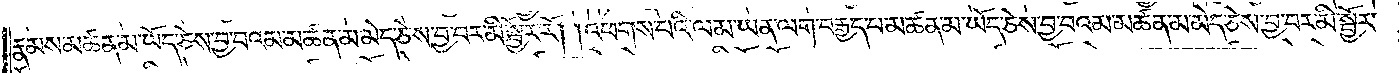རྣམས་མཚན་མ་ཡོད་ཅེས་བྱ་བའམ་མཚན་མ་མེད་ཅེས་བྱ་བར་མི་སྦྱོར་རོ། །འཕགས་པའི་ལམ་ཡན་ལག་བརྒྱད་པ་མཚན་མ་ཡོད་ཅེས་བྱ་བའམ་མཚན་མ་མེད་ཅེས་བྱ་བར་མི་སྦྱོར་
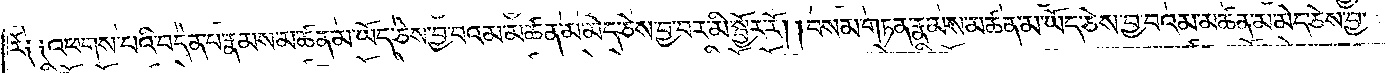རོ༑ ༑འཕགས་པའི་བདེན་པ་རྣམས་མཚན་མ་ཡོད་ཅེས་བྱ་བའམ་མཚན་མ་མེད་ཅེས་བྱ་བར་མི་སྦྱོར་རོ། །བསམ་གཏན་རྣམས་མཚན་མ་ཡོད་ཅེས་བྱ་བའམ་མཚན་མ་མེད་ཅེས་བྱ་
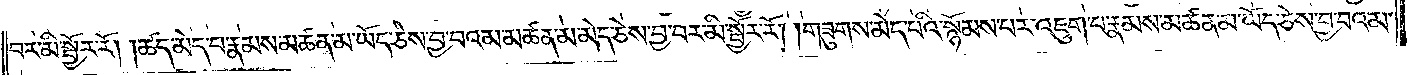བར་མི་སྦྱོར་རོ། །ཚད་མེད་པ་རྣམས་མཚན་མ་ཡོད་ཅེས་བྱ་བའམ་མཚན་མ་མེད་ཅེས་བྱ་བར་མི་སྦྱོར་རོ། །གཟུགས་མེད་པའི་སྙོམས་པར་འཇུག་པ་རྣམས་མཚན་མ་ཡོད་ཅེས་བྱ་བའམ་
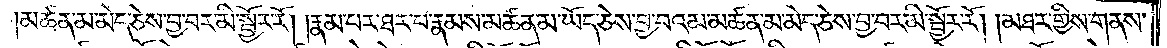མཚན་མ་མེད་ཅེས་བྱ་བར་མི་སྦྱོར་རོ། །རྣམ་པར་ཐར་པ་རྣམས་མཚན་མ་ཡོད་ཅེས་བྱ་བའམ་མཚན་མ་མེད་ཅེས་བྱ་བར་མི་སྦྱོར་རོ། །མཐར་གྱིས་གནས་
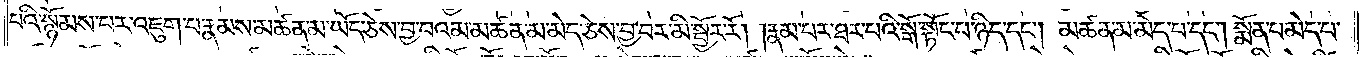པའི་སྙོམས་པར་འཇུག་པ་རྣམས་མཚན་མ་ཡོད་ཅེས་བྱ་བའམ་མཚན་མ་མེད་ཅེས་བྱ་བར་མི་སྦྱོར་རོ། །རྣམ་པར་ཐར་པའི་སྒོ་སྟོང་པ་ཉིད་དང༌། མཚན་མ་མེད་པ་དང༌། སྨོན་པ་མེད་པ་
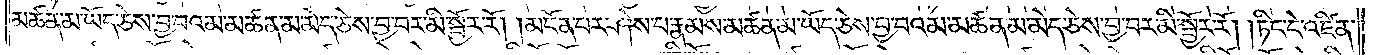མཚན་མ་ཡོད་ཅེས་བྱ་བའམ་མཚན་མ་མེད་ཅེས་བྱ་བར་མི་སྦྱོར་རོ། །མངོན་པར་ཤེས་པ་རྣམས་མཚན་མ་ཡོད་ཅེས་བྱ་བའམ་མཚན་མ་མེད་ཅེས་བྱ་བར་མི་སྦྱོར་རོ། །ཏིང་ངེ་འཛིན་
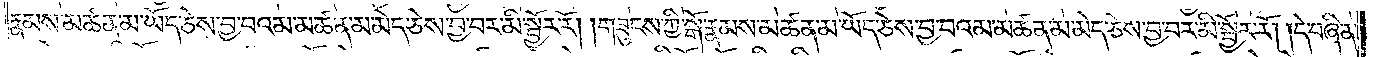རྣམས་མཚན་མ་ཡོད་ཅེས་བྱ་བའམ་མཚན་མ་མེད་ཅེས་བྱ་བར་མི་སྦྱོར་རོ། །གཟུངས་ཀྱི་སྒོ་རྣམས་མཚན་མ་ཡོད་ཅེས་བྱ་བའམ་མཚན་མ་མེད་ཅེས་བྱ་བར་མི་སྦྱོར་རོ། །དེ་བཞིན་
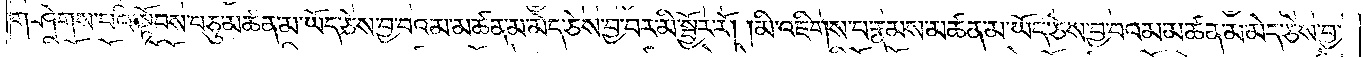གཤེགས་པའི་སྟོབས་བཅུ་མཚན་མ་ཡོད་ཅེས་བྱ་བའམ་མཚན་མ་མེད་ཅེས་བྱ་བར་མི་སྦྱོར་རོ། །མི་འཇིགས་པ་རྣམས་མཚན་མ་ཡོད་ཅེས་བྱ་བའམ་མཚན་མ་མེད་ཅེས་བྱ་
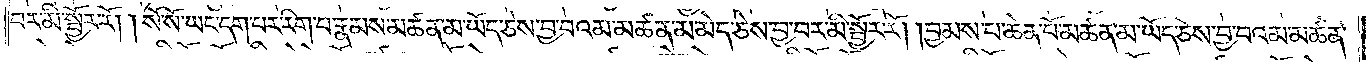བར་མི་སྦྱོར་རོ། །སོ་སོ་ཡང་དག་པར་རིག་པ་རྣམས་མཚན་མ་ཡོད་ཅེས་བྱ་བའམ་མཚན་མ་མེད་ཅེས་བྱ་བར་མི་སྦྱོར་རོ། །བྱམས་པ་ཆེན་པོ་མཚན་མ་ཡོད་ཅེས་བྱ་བའམ་མཚན་
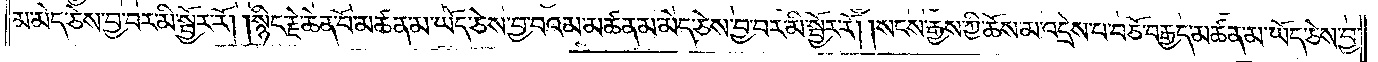མ་མེད་ཅེས་བྱ་བར་མི་སྦྱོར་རོ། །སྙིང་རྗེ་ཆེན་པོ་མཚན་མ་ཡོད་ཅེས་བྱ་བའམ་མཚན་མ་མེད་ཅེས་བྱ་བར་མི་སྦྱོར་རོ། །སངས་རྒྱས་ཀྱི་ཆོས་མ་འདྲེས་པ་བཅོ་བརྒྱད་མཚན་མ་ཡོད་ཅེས་བྱ་
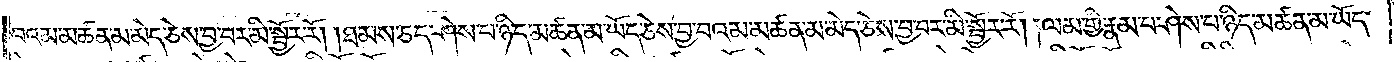བའམ་མཚན་མ་མེད་ཅེས་བྱ་བར་མི་སྦྱོར་རོ། །ཐམས་ཅད་ཤེས་པ་ཉིད་མཚན་མ་ཡོད་ཅེས་བྱ་བའམ་མཚན་མ་མེད་ཅེས་བྱ་བར་མི་སྦྱོར་རོ། །ལམ་གྱི་རྣམ་པ་ཤེས་པ་ཉིད་མཚན་མ་ཡོད་
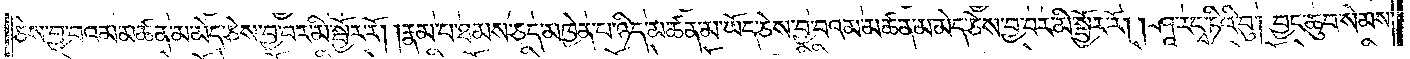ཅེས་བྱ་བའམ་མཚན་མ་མེད་ཅེས་བྱ་བར་མི་སྦྱོར་རོ། །རྣམ་པ་ཐམས་ཅད་མཁྱེན་པ་ཉིད་མཚན་མ་ཡོད་ཅེས་བྱ་བའམ་མཚན་མ་མེད་ཅེས་བྱ་བར་མི་སྦྱོར་རོ། །ཤཱ་ར་དྭ་ཏིའི་བུ། བྱང་ཆུབ་སེམས་
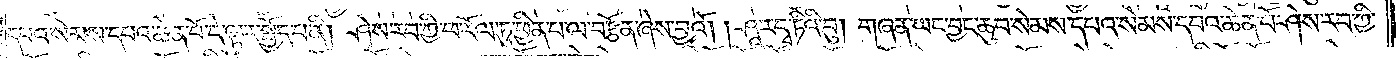དཔའ་སེམས་དཔའ་ཆེན་པོ་དེ་ལྟར་སྤྱོད་པ་ནི། ཤེས་རབ་ཀྱི་ཕ་རོལ་ཏུ་ཕྱིན་པ་ལ་བརྩོན་ཞེས་བྱའོ། །ཤཱ་ར་དྭ་ཏིའི་བུ། གཞན་ཡང་བྱང་ཆུབ་སེམས་དཔའ་སེམས་དཔའ་ཆེན་པོ་ཤེས་རབ་ཀྱི་
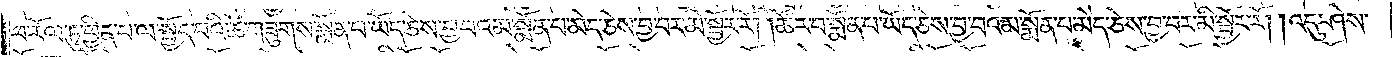ཕ་རོལ་ཏུ་ཕྱིན་པ་ལ་སྤྱོད་པའི་ཚེ་གཟུགས་སྨོན་པ་ཡོད་ཅེས་བྱ་བའམ་སྨོན་པ་མེད་ཅེས་བྱ་བར་མི་སྦྱོར་རོ། །ཚོར་བ་སྨོན་པ་ཡོད་ཅེས་བྱ་བའམ་སྨོན་པ་མེད་ཅེས་བྱ་བར་མི་སྦྱོར་རོ། །འདུ་ཤེས་
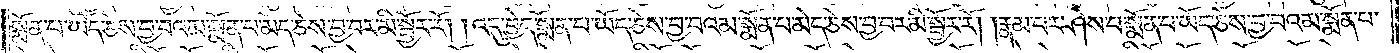སྨོན་པ་ཡོད་ཅེས་བྱ་བའམ་སྨོན་པ་མེད་ཅེས་བྱ་བར་མི་སྦྱོར་རོ། །འདུ་བྱེད་སྨོན་པ་ཡོད་ཅེས་བྱ་བའམ་སྨོན་པ་མེད་ཅེས་བྱ་བར་མི་སྦྱོར་རོ། །རྣམ་པར་ཤེས་པ་སྨོན་པ་ཡོད་ཅེས་བྱ་བའམ་སྨོན་པ་
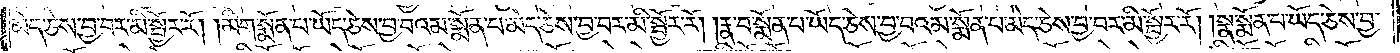མེད་ཅེས་བྱ་བར་མི་སྦྱོར་རོ། །མིག་སྨོན་པ་ཡོད་ཅེས་བྱ་བའམ་སྨོན་པ་མེད་ཅེས་བྱ་བར་མི་སྦྱོར་རོ། །རྣ་བ་སྨོན་པ་ཡོད་ཅེས་བྱ་བའམ་སྨོན་པ་མེད་ཅེས་བྱ་བར་མི་སྦྱོར་རོ། །སྣ་སྨོན་པ་ཡོད་ཅེས་བྱ་
